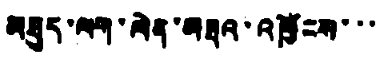མཐུད་ལག་ལེན་མཐའ་འཁྱོངས་་་་
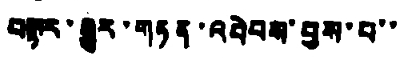བསྟར་རྒྱུར་གཏན་འབེབས་བྱས་པ་་
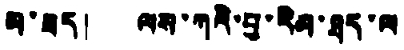མ་ཟད། ལས་ཀའི་བྱ་རིམ་ཐད་ལ
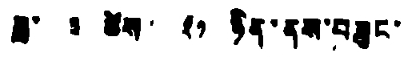ཟླ་ ༣ ཚེས་ ༢༡ ཉིན་ནས་བཟུང་
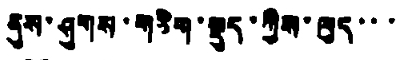ནུས་ཤུགས་གཅིག་སྡུད་ཀྱིས་ལུད་་་
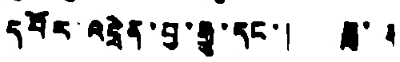དབོར་འདྲེན་བྱ་རྒྱུ་དང་། ཟླ་ ༣
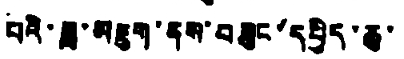པའི་ཟླ་མཇུག་ནས་བཟུང་དཔྱིད་ཆུ་
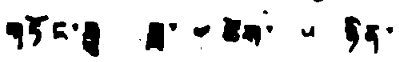གཏོང་རྒྱུ ཟླ་ ༤ ཚེས་ ༥ ཉིན་
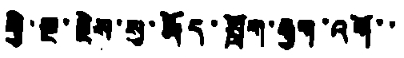གྱི་སྔ་རྗེས་སུ་རྨོད་སློག་རྒྱག་འགོ་་
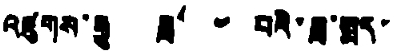འཛུགས་རྒྱུ ཟླ་ ༤ པའི་ཟླ་སྨད་
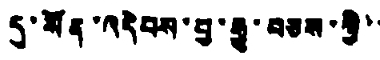དུ་སོན་འདེབས་བྱ་རྒྱུ་བཅས་ཀྱི་་་
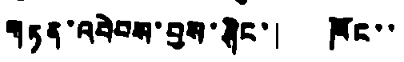གཏན་འབེབས་བྱས་ཤིང་། ཁོང་་
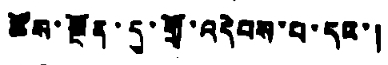ཚོས་སྔོན་དུ་གྲོ་འདེབས་པ་དང་།
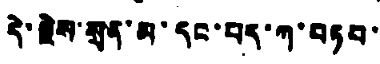དེ་རྗེས་སྲན་མ་དང་པད་ཀ་བཏབ་་
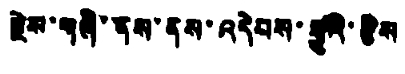རྗེས་གཞི་ནས་ནས་འདེབས་རྒྱུའི་རྩིས
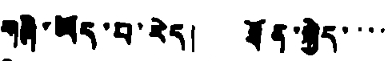གཞི་ཡོད་པ་རེད། ཐོན་སྐྱེད་་་་
